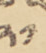༢༡
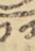༡༡
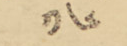༡༦
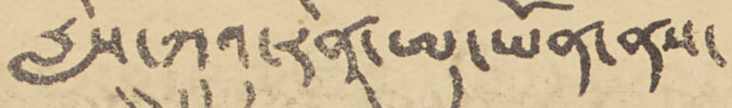རླིས་ཀྲུའུ་རིན་ཨུ་ཡོན་ནས་
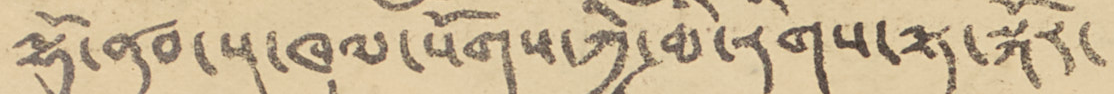ལྷོ་ནུབ་ས་ཁུལ་སོགས་ཀྱི་མི་རིགས་ལྟ་སྐོར་
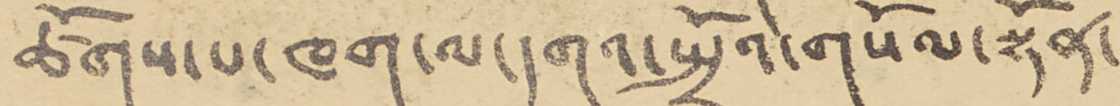ཚོགས་པ་ཁག་ལ་དགའ་སྤྲོའི་གསོལ་སྟོན་
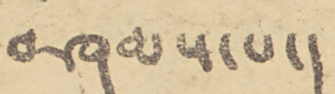བཤམས་པ་།
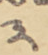༣
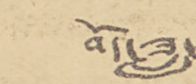བོད་ཟླ་
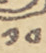༡༠
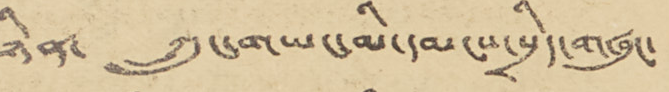ཉིན་ ཀྲུང་གཡང་མི་དམངས་སྲིད་གཞུང་
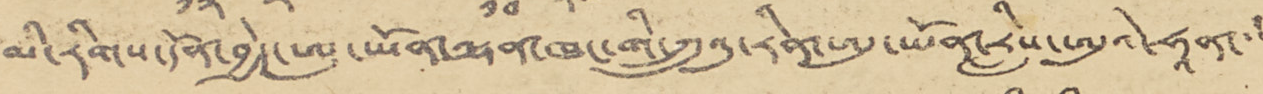མི་རིགས་དོན་བྱེད་ཡོན་ལྷན་ཁང་གི་ཀྲུའུ་རིན་ཨུ་ཡོན་རླིས་ཨུའེ་ཧཱན་་་་
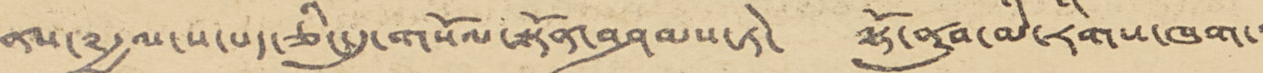ནས་༸རྒྱལ་ས་པད་ཅིང་དུ་གསོལ་སྟོན་བཤམས་ཏེ་ ལྷོ་ནུབ་མི་རིགས་ཁག་་་
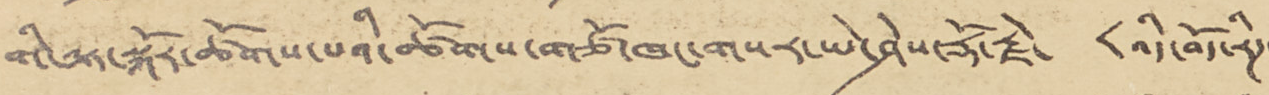གི་ལྟ་སྐོར་ཚོགས་པའི་ཚོགས་གཙོ་ཁང་གསར་ཡེ་ཤེས་རྡོ་རྗེ་ <འདི་བོད་རིཊ་
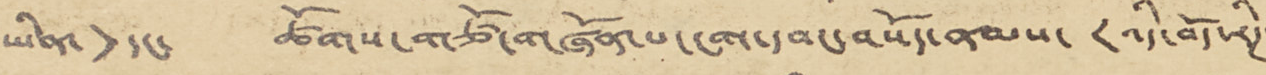ཡིན་> ཚོགས་གཙོ་གཞོན་པ་ངག་དབང་བསོད་ནམས་ <འདི་བོད་རིཊ་
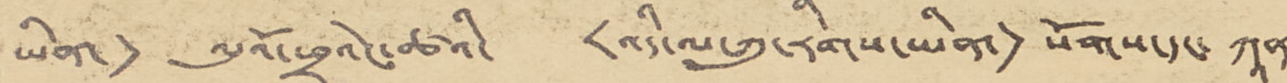ཡིན་> ལུའོ་ཕྲའེང་ཚའི་ <འདི་ལ་ཀུ་རིགས་ཡིན་> སོགས་དང་ ཀཱན་
